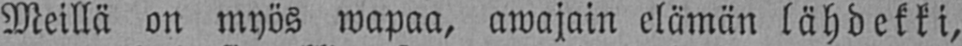Meillä on myös wapaa, awajain elämän lähdekki,
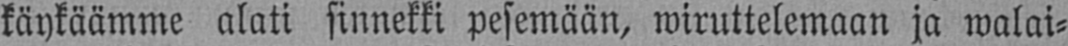käykäämme alati sinnekki pesemään, wiruttelemaan ja walai-
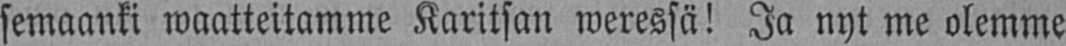semaanki waatteitamme Karitsan weressä! Ja nyt me olemme
